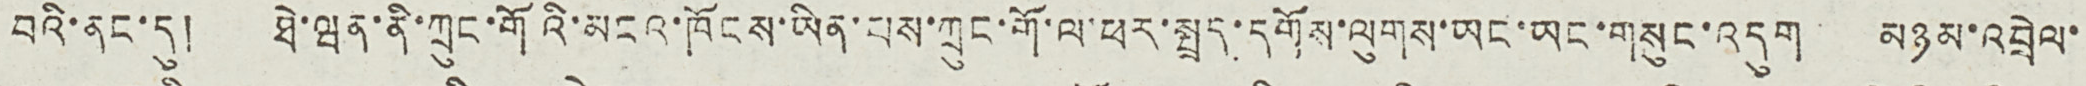བའི་ནང་དུ། ཐེ་ཝན་ནི་ཀྲུང་གོའི་མངའ་ཁོངས་ཡིན་པས་ཀྲུང་གོ་ལ་ཕར་སྤྲད་དགོས་ལུགས་ཡང་ཡང་གསུང་འདུག མཉམ་འབྲེལ་
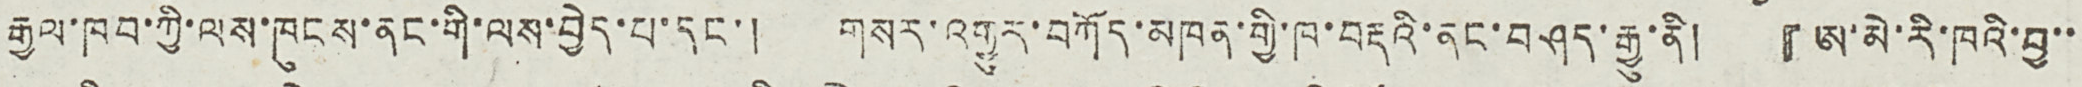རྒྱལ་ཁབ་ཀྱི་ལས་ཁུངས་ནང་གི་ལས་བྱེད་པ་དང་། གསར་འགྱུར་བཀོད་མཁན་གྱི་ཁ་བརྡའི་ནང་བཤད་རྒྱུ་ནི། 『ཨ་མེ་རི་ཁའི་བྱ་་
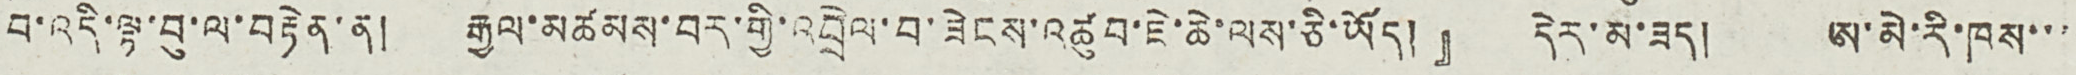བ་འདི་ལྟ་བུ་ལ་བརྟེན་ན། རྒྱལ་མཚམས་བར་གྱི་འབྲེལ་བ་ཟེངས་འཚུབ་ཇེ་ཆེ་ལས་ཅི་ཡོད།』 དེར་མ་ཟད། ཨ་མེ་རི་ཁས་་་
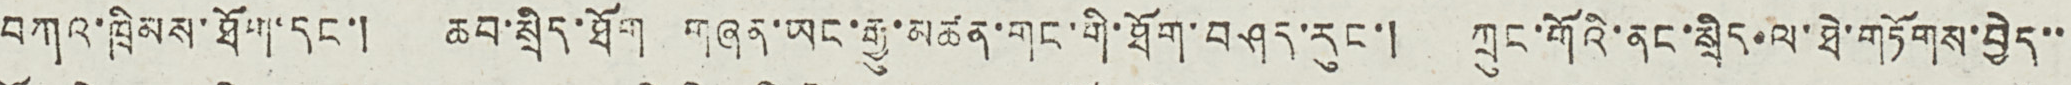བཀའ་ཁྲིམས་ཐོག་དང་། ཆབ་སྲིད་ཐོག གཞན་ཡང་རྒྱུ་མཚན་གང་གི་ཐོག་བཤད་རུང་། ཀྲུང་གོའི་ནང་སྲིད་ལ་ཐེ་གཏོགས་བྱེད་་
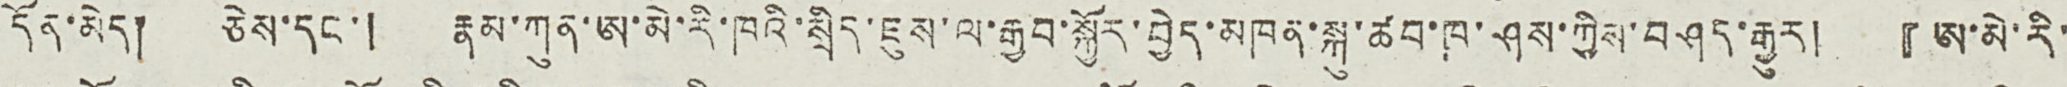དོན་མེད། ཅེས་དང་། རྣམ་ཀུན་ཨ་མེ་རི་ཁའི་སྲིད་ཇུས་ལ་རྒྱབ་སྐྱོར་བྱེད་མཁན་སྐུ་ཚབ་ཁ་ཤས་ཀྱིས་བཤད་རྒྱུར། 『ཨ་མེ་རི་
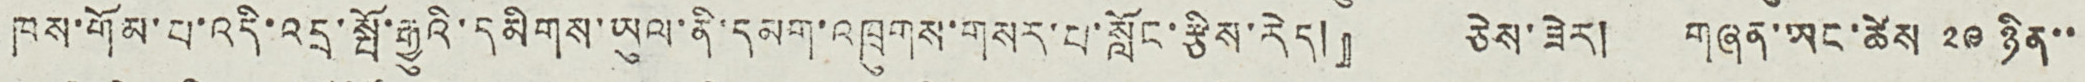ཁས་གོམ་པ་འདི་འདྲ་སྤོ་རྒྱུའི་དམིགས་ཡུལ་ནི་དམག་འཁྲུགས་གསར་པ་སློང་རྩིས་རེད།』 ཅེས་ཟེར། གཞན་ཡང་ཚེས ༢༩ ཉིན་་
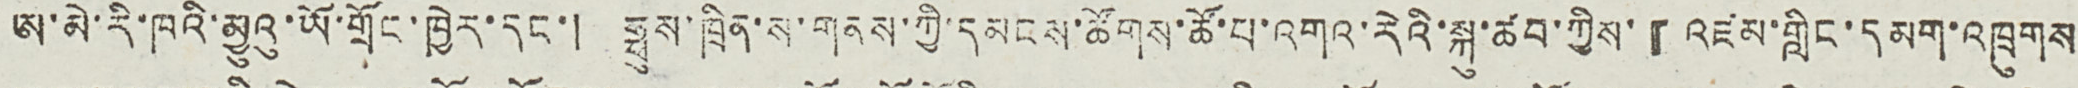ཨ་མེ་རི་ཁའི་མྱུའུ་ཡོ་གྲོང་ཁྱེར་དང་། ཧྥུས་ཁྲིན་ས་གནས་ཀྱི་དམངས་ཚོགས་ཚོ་པ་འགའ་རེའི་སྐུ་ཚབ་ཀྱིས་『འཛམ་གླིང་དམག་འཁྲུགས
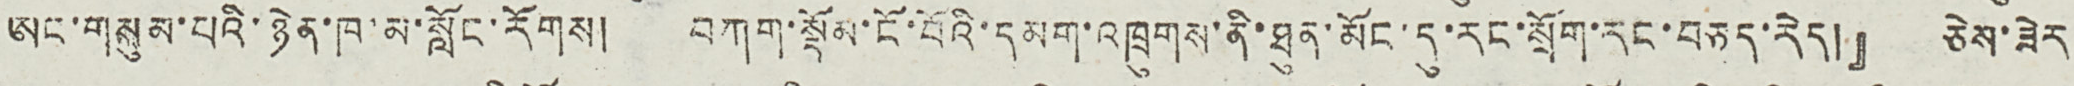ཨང་གསུམ་པའི་ཉེན་ཁ་མ་སློང་རོགས། བཀག་སྡོམ་ངོ་བོའི་དམག་འཁྲུགས་ནི་ཐུན་མོང་དུ་རང་སྲོག་རང་བཅད་རེད།』 ཅེས་ཟེར
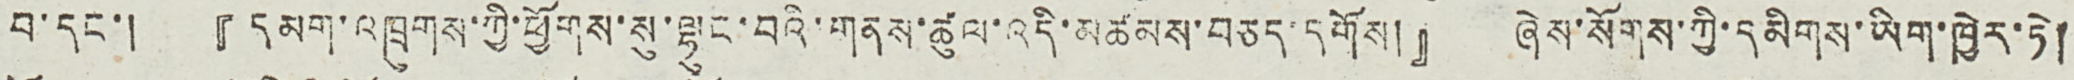བ་དང་། 『དམག་འཁྲུགས་ཀྱི་ཕྱོགས་སུ་ལྷུང་བའི་གནས་ཚུལ་འདི་མཚམས་བཅད་དགོས།』 ཞེས་སོགས་ཀྱི་དམིགས་ཡིག་ཁྱེར་ཏེ།
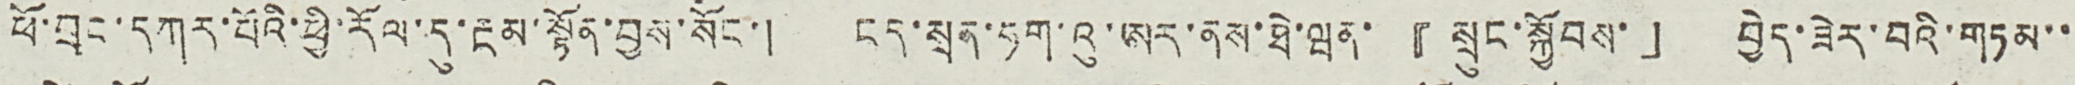ཕོ་བྲང་དཀར་པོའི་ཕྱི་རོལ་དུ་རྔམ་སྟོན་བྱས་སོང་། ངད་སྲན་ཧག་འུ་ཨར་ནས་ཐེ་ཝན་『སྲུང་སྐྱོབས་」 བྱེད་ཟེར་བའི་གཏམ་་
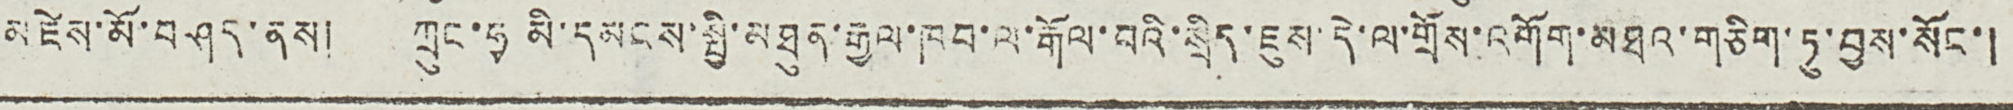མཛེས་མོ་བཤད་ནས། ཀྲུང་ཧྭ མི་དམངས་སྤྱི་མཐུན་རྒྱལ་ཁབ་ལ་རྒོལ་བའི་སྲིད་ཇུས་དེ་ལ་གྲོས་འགོག་མཐའ་གཅིག་ཏུ་བྱས་སོང་།
